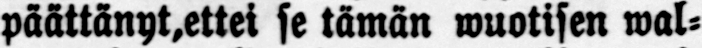päättänyt, ettei se tämän wuotisen wal-
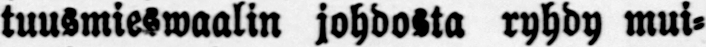tuusmieswaalin johdosta ryhdy mui-
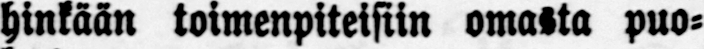hinkään toimenpiteisiin omasta puo-
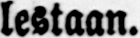lestaan.
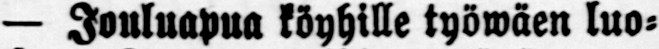— Jouluapua köyhille työwäen luo-
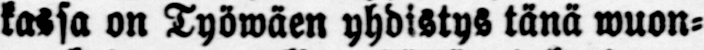kassa on Työwäen yhdistys tänä wuon-
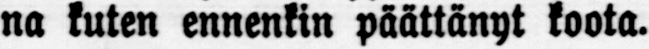na kuten ennenkin päättänyt koota.
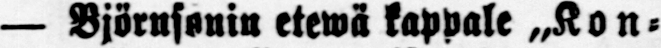— Björnsonin etewä kappale »Kon-
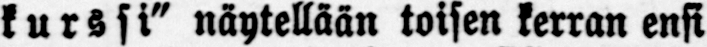kurssi" näytellään toisen kerran ensi
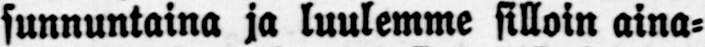sunnuntaina ja luulemme silloin aina-
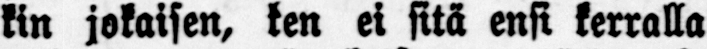kin jokaisen, ken ei sitä ensi kerralla
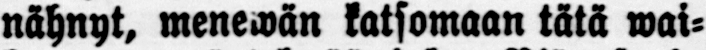nähnyt, menewän katsomaan tätä wai-
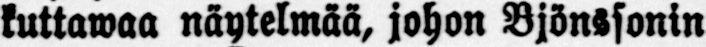kuttawaa näytelmää, johon Bjönssonin
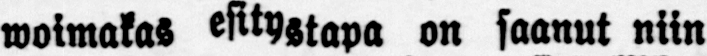woimakas esitystapa on saanut niin
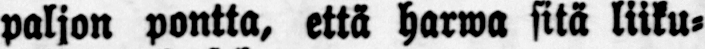paljon pontta, että harwa sitä liiku-
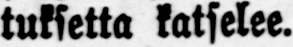tuksetta katselee.
